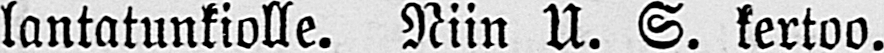lantatunkiolle. Niin U. S. kertoo.
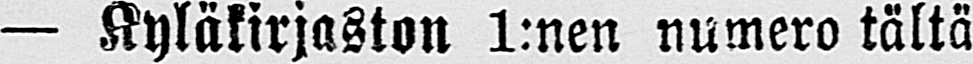— Kyläkirjaston 1:nen numero tältä
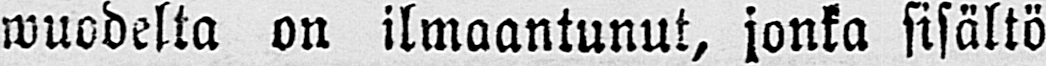wuodelta on ilmaantunut, jonka sisältö
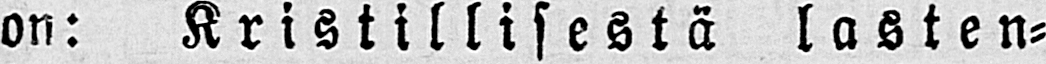on: Kristillisestä lasten-
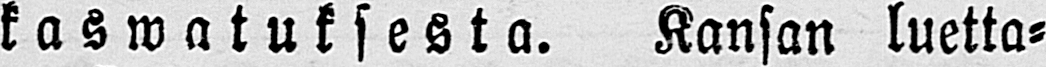kaswatuksesta. Kansan luetta-
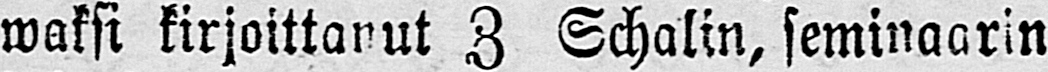waksi kirjoittanut Z Schalin, seminaarin
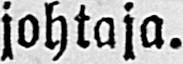johtaja.
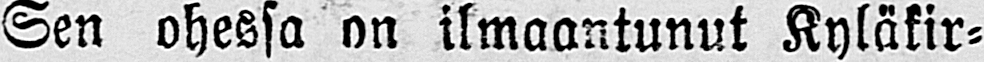Sen ohessa on ilmaantunut Kyläkir-
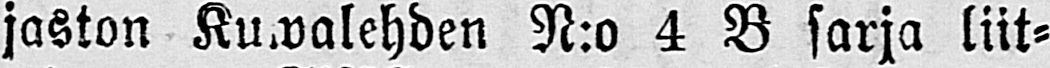jaston Kuwalehden N:o 4 B sarja liit-
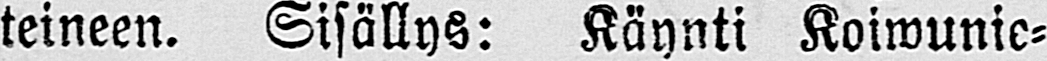teineen. Sisällys: Käynti Koiwunie-
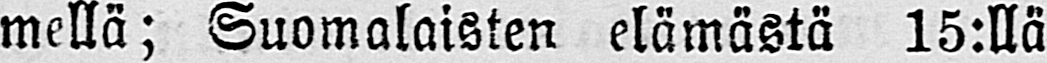mellä; Suomalaisten elämästä 15:llä
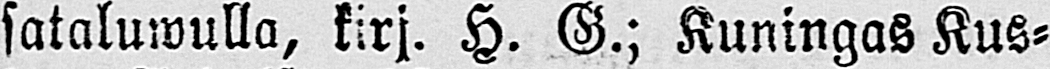sataluwulla, kirj. H. G.; Kuningas Kus-
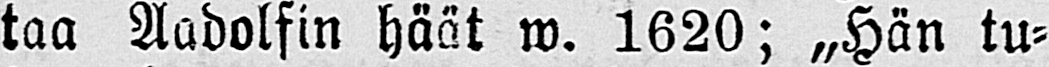taa Aadolfin häät w. 1620; „Hän tu-
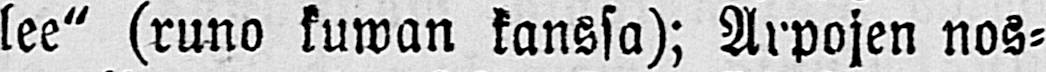lee" (runo kuwan kanssa); Arpojen nos-
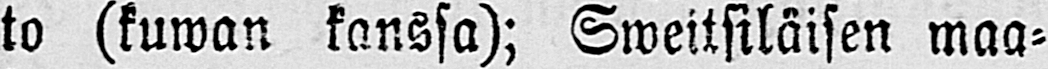to (kuwan kanssa); Sweitsiläisen maa-
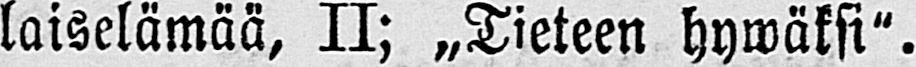laiselämää, II; „Tieteen hywäksi".
